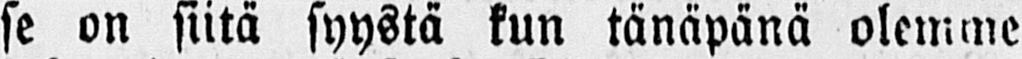se on siitä syystä kun tänäpänä olemme
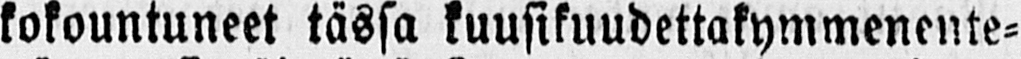kokountuneet tässä kuusikuudettakymmenente-
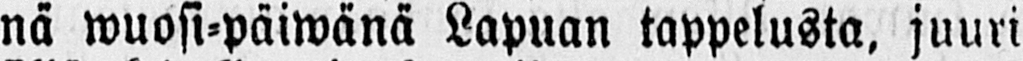nä wuosi-päiwänä Lapuan tappelusta, juuri
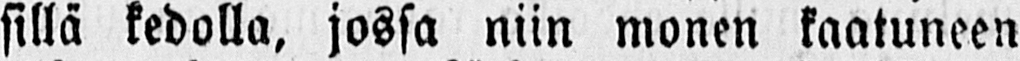sillä kedolla, jossa niin monen kaatuneen
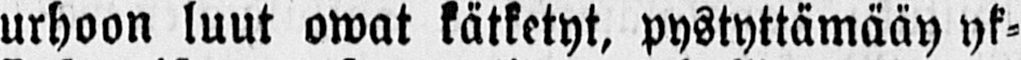urhoon luut owat kätketyt, pystyttämään yk-
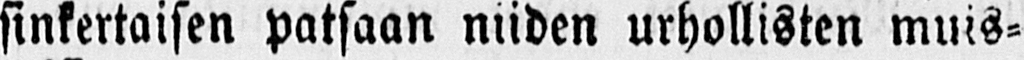sinkertaisen patsaan niiden urhollisten muis-
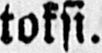toksi.
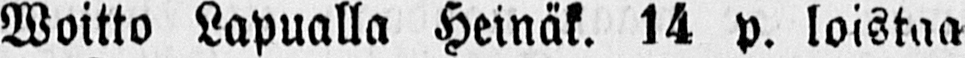Woitto Lapualla Heinäk. 14 p. loistaa
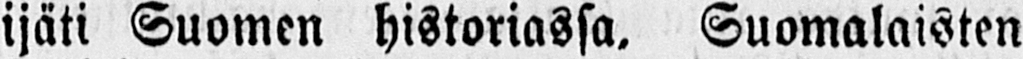ijäti Suomen historiassa, Suomalaisten
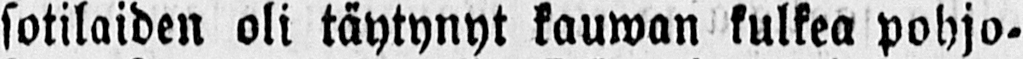sotilaiden oli täytynyt kauwan kulkea pohjo-
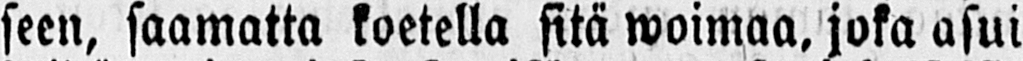seen, saamatta koetella sitä woimaa, joka asui
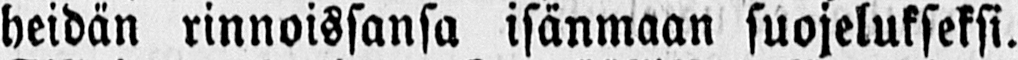heidän rinnoissansa isänmaan suojelukseksi.
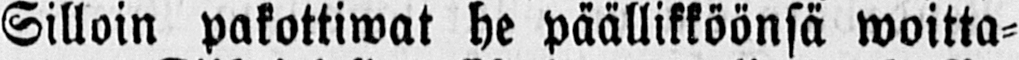Silloin pakottiwat he päällikköönsä woitta-
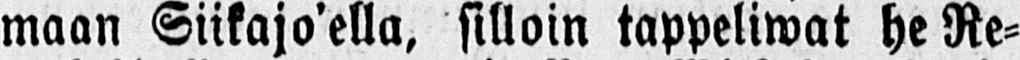maan Siikajo'ella, silloin tappeliwat he Re-
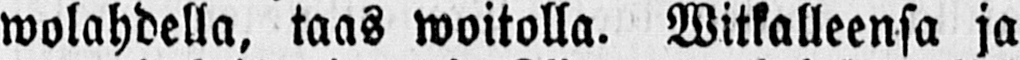wolahdella, taas woitolla. Witkalleensa ja
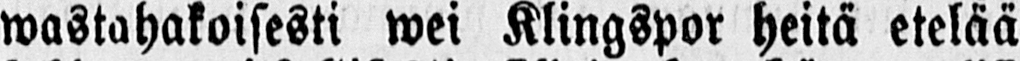wastahakoisesti wei Klingspor heitä etelää
